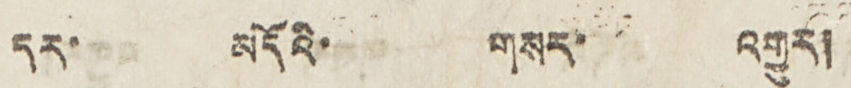དར་ མདོའི་ གསར་ འགྱུར།
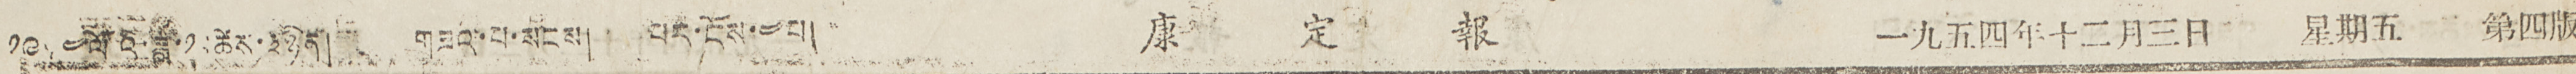༡༩༥༤ལོའི་ཟླ་༡༢ཚེས་༣ཉིན། གཟའ་པ་སངས། པར་ངོས་༤པ། 康 定 報 一九五四年十二月三日 星期五 第四版
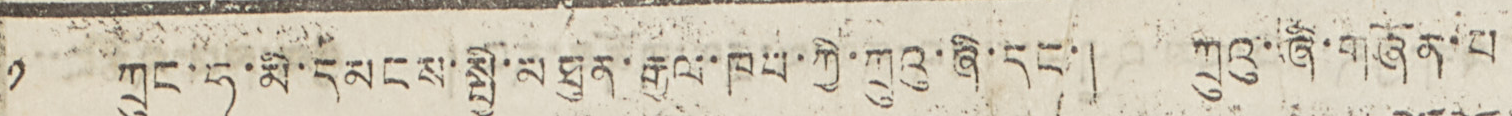༡ ཀྲུང་ཧྭ་མི་དམངས་སྤྱི་མཐུན་རྒྱལ་ཁབ་ཀྱི་ཀྲུའུ་ཞི་དང་། ཀྲུའུ་ཞི་གཞོན་པ།
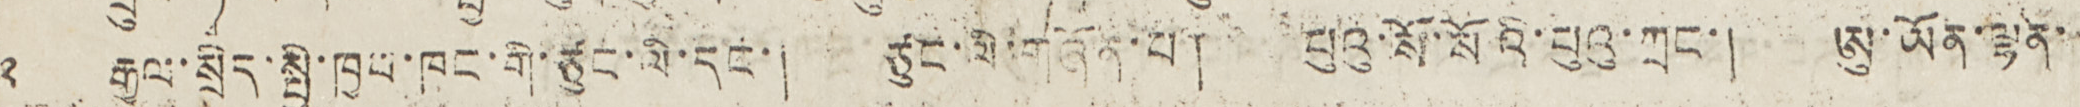༢ རྒྱལ་སྲིད་སྤྱི་ཁྱབ་ཁང་གི་ཙུང་ལི་དང་། ཙུང་ལི་གཞོན་པ། པུའུ་སོ་སོའི་པུའི་ཀྲང་། ཨུ་ཡོན་ལྷན་
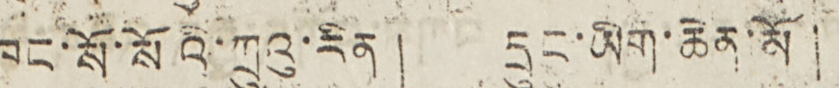ཁང་སོ་སོའི་ཀྲུའུ་རིན། དྲུང་ཡིག་ཆེན་མོ།
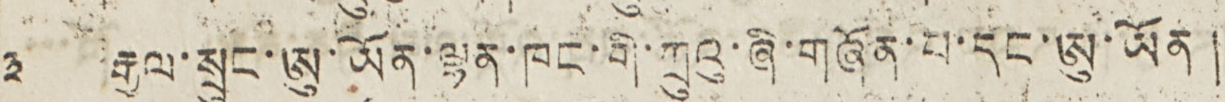༣ རྒྱལ་སྲུང་ཨུ་ཡོན་ལྷན་ཁང་གི་ཀྲུའུ་ཞི་གཞོན་པ་དང་ཨུ་ཡོན།
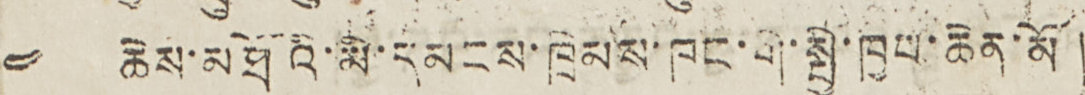༤ ཆེས་མཐོའི་མི་དམངས་ཁྲིམས་ཁང་གི་སྤྱི་ཁྱབ་ཆེན་མོ།
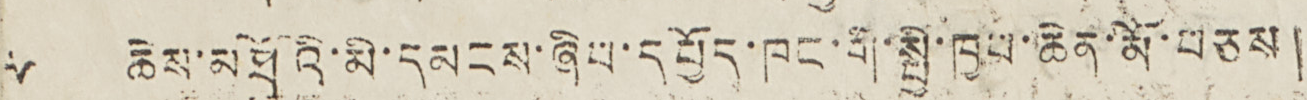༥ ཆེས་མཐོའི་མི་དམངས་ཞིབ་དཔྱོད་ཁང་གི་སྤྱི་ཁྱབ་ཆེན་མོ་བཅས།
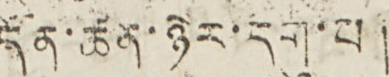དོན་ཚན་ཉེར་དགུ་པ།
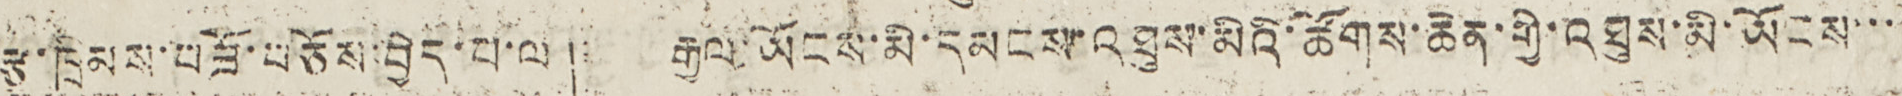རྩ་ཁྲིམས་བཟོ་བཅོས་བྱེད་པ་ལ། རྒྱལ་ཡོངས་མི་དམངས་འཐུས་མིའི་ཚོགས་ཆེན་གྱི་འཐུས་མི་ཡོངས་་་
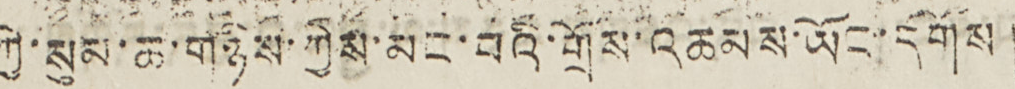ཀྱི་སུམ་ཆ་གཉིས་ཀྱིས་མང་བའི་གྲོས་འཆམས་ཡོངས་དགོས།
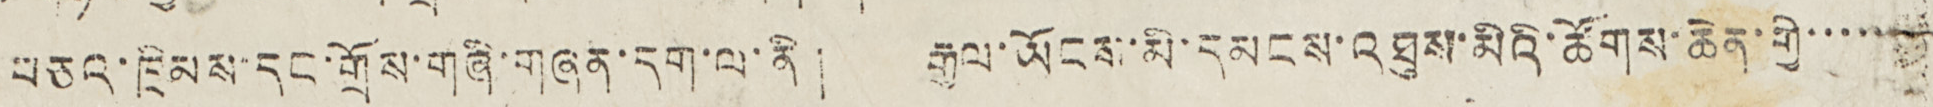བཅའ་ཁྲིམས་དང་གྲོས་གཞི་གཞན་དག་ལ་ནི། རྒྱལ་ཡོངས་མི་དམངས་འཐུས་མིའི་ཚོགས་ཆེན་གྱི་་་་་་
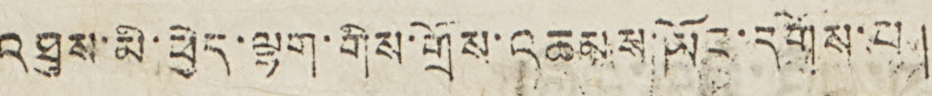འཐུས་མི་ཕྱེད་ལྷག་གིས་གྲོས་འཆམས་ཡོང་དགོས་པ།
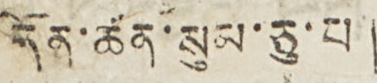དོན་ཚན་སུམ་ཅུ་པ།
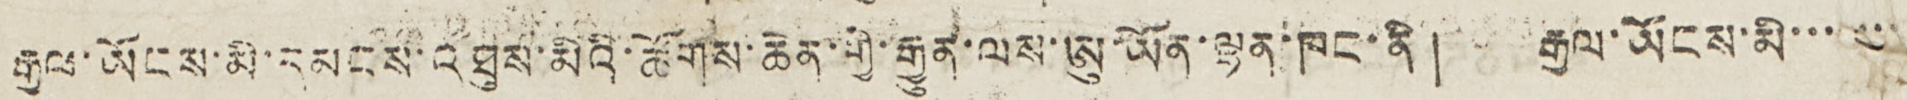རྒྱལ་ཡོངས་མི་དམངས་འཐུས་མིའི་ཚོགས་ཆེན་གྱི་རྒྱུན་ལས་ཨུ་ཡོན་ལྷན་ཁང་ནི། རྒྱལ་ཡོངས་མི་་་་་་་
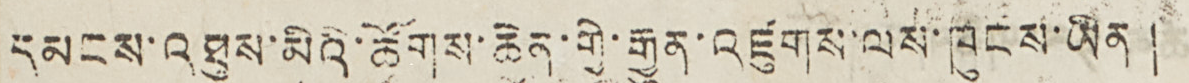དམངས་འཐུས་མིའི་ཚོགས་ཆེན་གྱི་རྒྱུན་འཛུགས་ལས་ཁུངས་ཡིན།
